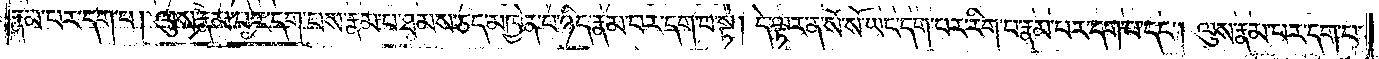རྣམ་པར་དག་པ། ལུས་རྣམ་པར་དག་པས་རྣམ་པ་ཐམས་ཅད་མཁྱེན་པ་ཉིད་རྣམ་པར་དག་པ་སྟེ། དེ་ལྟར་ན་སོ་སོ་ཡང་དག་པར་རིག་པ་རྣམ་པར་དག་པ་དང༌། ལུས་རྣམ་པར་དག་པ་
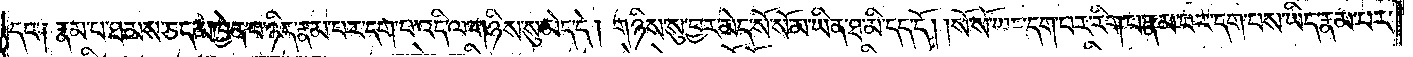དང་༑ རྣམ་པ་ཐམས་ཅད་མཁྱེན་པ་ཉིད་རྣམ་པར་དག་པ་འདི་ལ་གཉིས་སུ་མེད་དེ། གཉིས་སུ་བྱར་མེད་སོ་སོ་མ་ཡིན་ཐ་མི་དད་དོ། །སོ་སོ་ཡང་དག་པར་རིག་པ་རྣམ་པར་དག་པས་ཡིད་རྣམ་པར་
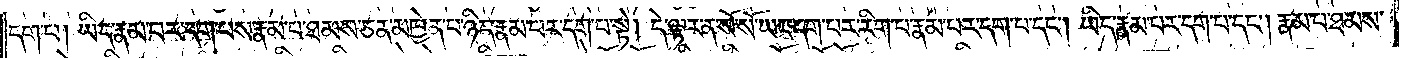དག་པ། ཡིད་རྣམ་པར་དག་པས་རྣམ་པ་ཐམས་ཅད་མཁྱེན་པ་ཉིད་རྣམ་པར་དག་པ་སྟེ། དེ་ལྟར་ན་སོ་སོ་ཡང་དག་པར་རིག་པ་རྣམ་པར་དག་པ་དང༌། ཡིད་རྣམ་པར་དག་པ་དང༌། རྣམ་པ་ཐམས་
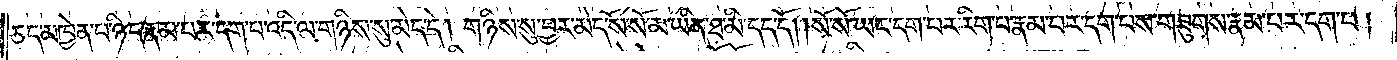ཅད་མཁྱེན་པ་ཉིད་རྣམ་པར་དག་པ་འདི་ལ་གཉིས་སུ་མེད་དེ། གཉིས་སུ་བྱར་མེད་སོ་སོ་མ་ཡིན་ཐ་མི་དད་དོ། །སོ་སོ་ཡང་དག་པར་རིག་པ་རྣམ་པར་དག་པས་གཟུགས་རྣམ་པར་དག་པ།
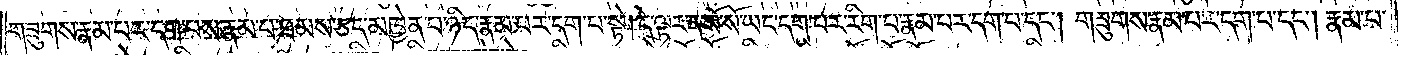གཟུགས་རྣམ་པར་དག་པས་རྣམ་པ་ཐམས་ཅད་མཁྱེན་པ་ཉིད་རྣམ་པར་དག་པ་སྟེ། དེ་ལྟར་ན་སོ་སོ་ཡང་དག་པར་རིག་པ་རྣམ་པར་དག་པ་དང༌། གཟུགས་རྣམ་པར་དག་པ་དང༌། རྣམ་པ་
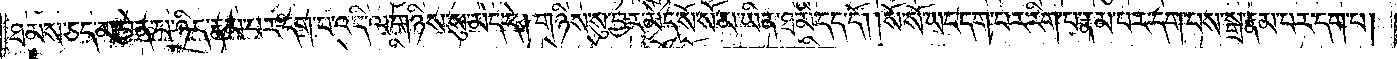ཐམས་ཅད་མཁྱེན་པ་ཉིད་རྣམ་པར་དག་པ་འདི་ལ་གཉིས་སུ་མེད་དེ། གཉིས་སུ་བྱར་མེད་སོ་སོ་མ་ཡིན་ཐ་མི་དད་དོ། །སོ་སོ་ཡང་དག་པར་རིག་པ་རྣམ་པར་དག་པས་སྒྲ་རྣམ་པར་དག་པ།
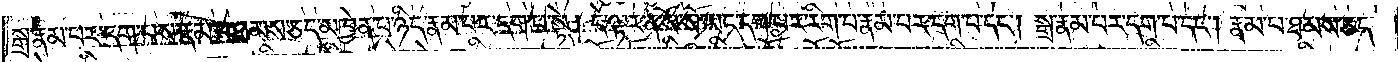སྒྲ་རྣམ་པར་དག་པས་རྣམ་པ་ཐམས་ཅད་མཁྱེན་པ་ཉིད་རྣམ་པར་དག་པ་སྟེ། དེ་ལྟར་ན་སོ་སོ་ཡང་དག་པར་རིག་པ་རྣམ་པར་དག་པ་དང༌། སྒྲ་རྣམ་པར་དག་པ་དང༌། རྣམ་པ་ཐམས་ཅད་
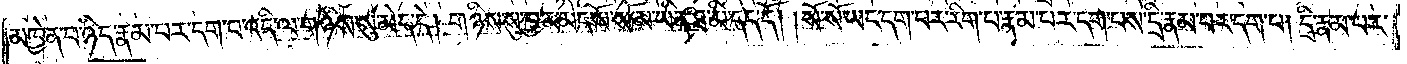མཁྱེན་པ་ཉིད་རྣམ་པར་དག་པ་འདི་ལ་གཉིས་སུ་མེད་དེ། གཉིས་སུ་བྱར་མེད་སོ་སོ་མ་ཡིན་ཐ་མི་དད་དོ། །སོ་སོ་ཡང་དག་པར་རིག་པ་རྣམ་པར་དག་པས་དྲི་རྣམ་པར་དག་པ། དྲི་རྣམ་པར་
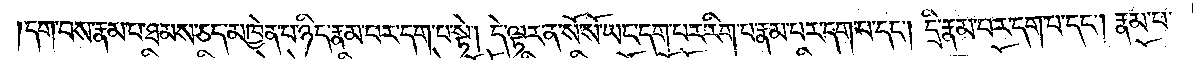དག་པས་རྣམ་པ་ཐམས་ཅད་མཁྱེན་པ་ཉིད་རྣམ་པར་དག་པ་སྟེ། དེ་ལྟར་ན་སོ་སོ་ཡང་དག་པར་རིག་པ་རྣམ་པར་དག་པ་དང༌། དྲི་རྣམ་པར་དག་པ་དང༌། རྣམ་པ་
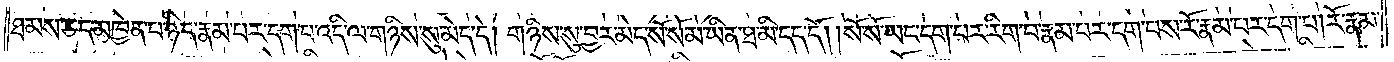ཐམས་ཅད་མཁྱེན་པ་ཉིད་རྣམ་པར་དག་པ་འདི་ལ་གཉིས་སུ་མེད་དེ། གཉིས་སུ་བྱར་མེད་སོ་སོ་མ་ཡིན་ཐ་མི་དད་དོ། །སོ་སོ་ཡང་དག་པར་རིག་པ་རྣམ་པར་དག་པས་རོ་རྣམ་པར་དག་པ། རོ་རྣམ་
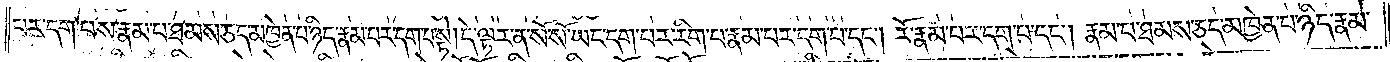པར་དག་པས་རྣམ་པ་ཐམས་ཅད་མཁྱེན་པ་ཉིད་རྣམ་པར་དག་པ་སྟེ། དེ་ལྟར་ན་སོ་སོ་ཡང་དག་པར་རིག་པ་རྣམ་པར་དག་པ་དང༌། རོ་རྣམ་པར་དག་པ་དང༌། རྣམ་པ་ཐམས་ཅད་མཁྱེན་པ་ཉིད་རྣམ་
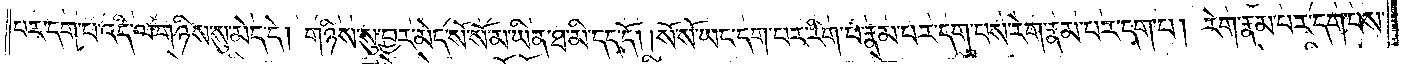པར་དག་པ་འདི་ལ་གཉིས་སུ་མེད་དེ། གཉིས་སུ་བྱར་མེད་སོ་སོ་མ་ཡིན་ཐ་མི་དད་དོ། །སོ་སོ་ཡང་དག་པར་རིག་པ་རྣམ་པར་དག་པས་རེག་རྣམ་པར་དག་པ། རེག་རྣམ་པར་དག་པས་
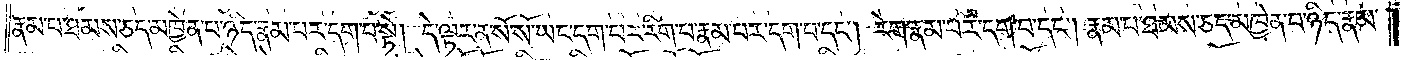རྣམ་པ་ཐམས་ཅད་མཁྱེན་པ་ཉིད་རྣམ་པར་དག་པ་སྟེ། དེ་ལྟར་ན་སོ་སོ་ཡང་དག་པར་རིག་པ་རྣམ་པར་དག་པ་དང༌། རེག་རྣམ་པར་དག་པ་དང༌། རྣམ་པ་ཐམས་ཅད་མཁྱེན་པ་ཉིད་རྣམ་
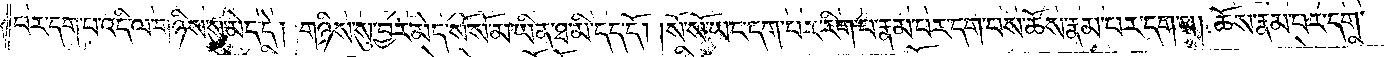པར་དག་པ་འདི་ལ་གཉིས་སུ་མེད་དེ། གཉིས་སུ་བྱར་མེད་སོ་སོ་མ་ཡིན་ཐ་མི་དད་དོ། །སོ་སོ་ཡང་དག་པར་རིག་པ་རྣམ་པར་དག་པས་ཆོས་རྣམ་པར་དག་པ། ཆོས་རྣམ་པར་དག་
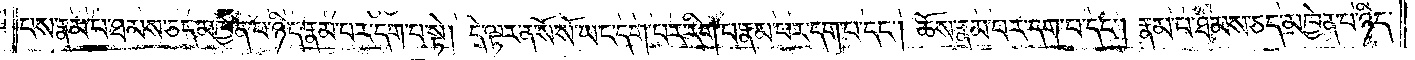པས་རྣམ་པ་ཐམས་ཅད་མཁྱེན་པ་ཉིད་རྣམ་པར་དག་པ་སྟེ། དེ་ལྟར་ན་སོ་སོ་ཡང་དག་པར་རིག་པ་རྣམ་པར་དག་པ་དང༌། ཆོས་རྣམ་པར་དག་པ་དང༌། རྣམ་པ་ཐམས་ཅད་མཁྱེན་པ་ཉིད་
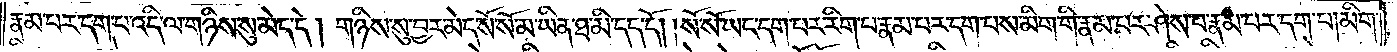རྣམ་པར་དག་པ་འདི་ལ་གཉིས་སུ་མེད་དེ། གཉིས་སུ་བྱར་མེད་སོ་སོ་མ་ཡིན་ཐ་མི་དད་དོ། །སོ་སོ་ཡང་དག་པར་རེག་པ་རྣམ་པར་དག་པས་མིག་གི་རྣམ་པར་ཤེས་པ་རྣམ་པར་དག་པ། མིག་
